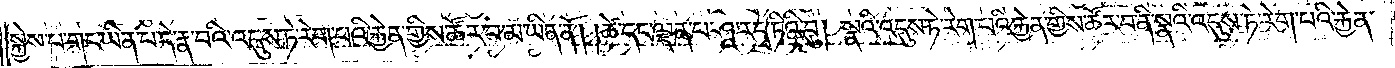སྐྱེས་པ་གང་ཡིན་པ་དེ་རྣ་བའི་འདུས་ཏེ་རེག་པའི་རྐྱེན་གྱིས་ཚོར་བ་མ་ཡིན་ནོ། །ཚེ་དང་ལྡན་པ་ཤཱ་ར་དྭ་ཏིའི་བུ། སྣའི་འདུས་ཏེ་རེག་པའི་རྐྱེན་གྱིས་ཚོར་བ་ནི་སྣའི་འདུས་ཏེ་རེག་པའི་རྐྱེན་
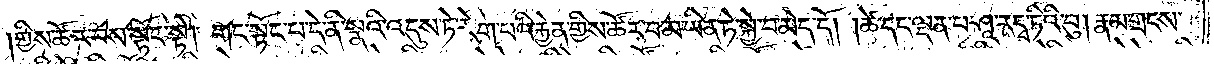གྱིས་ཚོར་བས་སྟོང་སྟེ། གང་སྟོང་པ་དེ་ནི་སྣའི་འདུས་ཏེ་རེག་པའི་རྐྱེན་གྱིས་ཚོར་བ་མ་ཡིན་ཏེ་སྐྱེ་བ་མེད་དོ། །ཚེ་དང་ལྡན་པ་ཤཱ་ར་དྭ་ཏིའི་བུ། རྣམ་གྲངས་
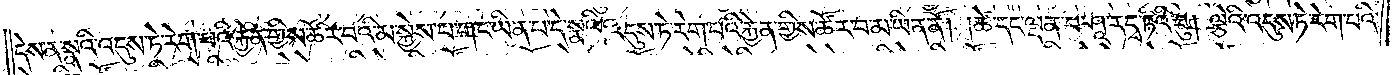དེས་ན་སྣའི་འདུས་ཏེ་རེག་པའི་རྐྱེན་གྱིས་ཚོར་བའི་མ་སྐྱེས་པ་གང་ཡིན་པ་དེ་སྣའི་འདུས་ཏེ་རེག་པའི་རྐྱེན་གྱིས་ཚོར་བ་མ་ཡིན་ནོ། །ཚེ་དང་ལྡན་པ་ཤཱ་ར་དྭ་ཏིའི་བུ། ལྕེའི་འདུས་ཏེ་རེག་པའི་
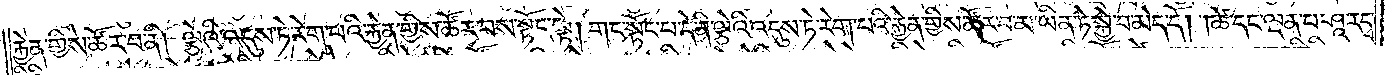རྐྱེན་གྱིས་ཚོར་བ་ནི། ལྕེའི་འདུས་ཏེ་རེག་པའི་རྐྱེན་གྱིས་ཚོར་བས་སྟོང་སྟེ། གང་སྟོང་པ་དེ་ནི་ལྕེའི་འདུས་ཏེ་རེག་པའི་རྐྱེན་གྱིས་ཚོར་བ་མ་ཡིན་ཏེ་སྐྱེ་བ་མེད་དོ། །ཚེ་དང་ལྡན་པ་ཤཱ་ར་དྭ་
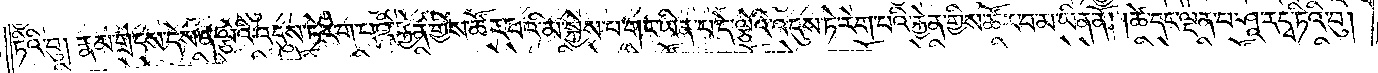ཏིའི་བུ། རྣམ་གྲངས་དེས་ན་ལྕེའི་འདུས་ཏེ་རེག་པའི་རྐྱེན་གྱིས་ཚོར་བའི་མ་སྐྱེས་པ་གང་ཡིན་པ་དེ་ལྕེའི་འདུས་ཏེ་རེག་པའི་རྐྱེན་གྱིས་ཚོར་བ་མ་ཡིན་ནོ། །ཚེ་དང་ལྡན་པ་ཤཱ་ར་དྭ་ཏིའི་བུ།
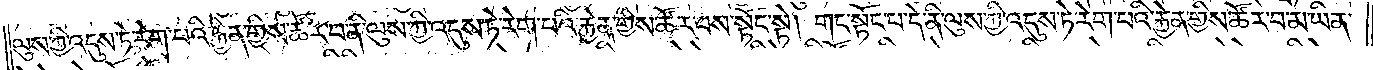ལུས་ཀྱི་འདུས་ཏེ་རེག་པའི་རྐྱེན་གྱིས་ཚོར་བ་ནི་ལུས་ཀྱི་འདུས་ཏེ་རེག་པའི་རྐྱེན་གྱིས་ཚོར་བས་སྟོང་སྟེ། གང་སྟོང་པ་དེ་ནི་ལུས་ཀྱི་འདུས་ཏེ་རེག་པའི་རྐྱེན་གྱིས་ཚོར་བ་མ་ཡིན་
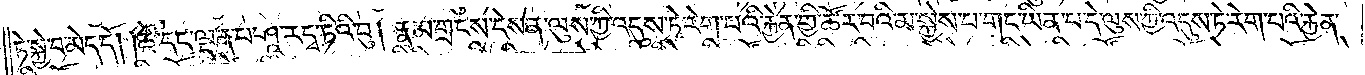ཏེ་སྐྱེ་བ་མེད་དོ། ཚེ་དང་ལྡན་པ་ཤཱ་ར་དྭ་ཏིའི་བུ། རྣམ་གྲངས་དེས་ན་ལུས་ཀྱི་འདུས་ཏེ་རེག་པའི་རྐྱེན་གྱིས་ཚོར་བའི་མ་སྐྱེས་པ་གང་ཡིན་པ་དེ་ལུས་ཀྱི་འདུས་ཏེ་རེག་པའི་རྐྱེན་
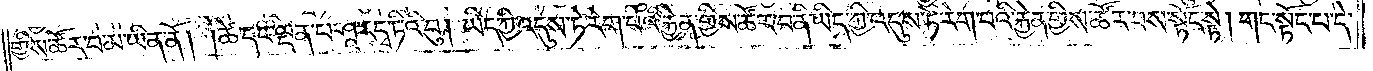གྱིས་ཚོར་བ་མ་ཡིན་ནོ། །ཚེ་དང་ལྡན་པ་ཤཱ་ར་དྭ་ཏིའི་བུ། ཡིད་ཀྱི་འདུས་ཏེ་རེག་པའི་རྐྱེན་གྱིས་ཚོར་བ་ནི་ཡིད་ཀྱི་འདུས་ཏེ་རེག་པའི་རྐྱེན་གྱིས་ཚོར་བས་སྟོང་སྟེ། གང་སྟོང་པ་དེ་
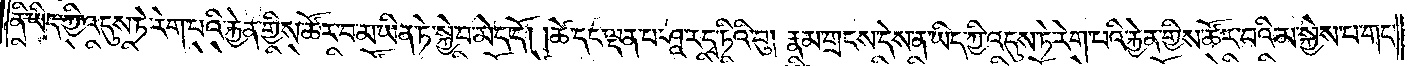ནི་ཡིད་ཀྱི་འདུས་ཏེ་རེག་པའི་རྐྱེན་གྱིས་ཚོར་བ་མ་ཡིན་ཏེ་སྐྱེ་བ་མེད་དོ། །ཚེ་དང་ལྡན་པ་ཤཱ་ར་དྭ་ཏིའི་བུ། རྣམ་གྲངས་དེས་ན་ཡིད་ཀྱི་འདུས་ཏེ་རེག་པའི་རྐྱེན་གྱིས་ཚོར་བའི་མ་སྐྱེས་པ་གང་
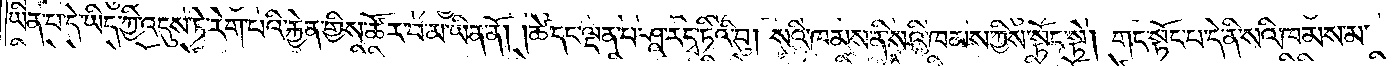ཡིན་པ་དེ་ཡིད་ཀྱི་འདུས་ཏེ་རེག་པའི་རྐྱེན་གྱིས་ཚོར་བ་མ་ཡིན་ནོ། །ཚེ་དང་ལྡན་པ་ཤཱ་ར་དྭ་ཏིའི་བུ། སའི་ཁམས་ནི་སའི་ཁམས་ཀྱིས་སྟོང་སྟེ། གང་སྟོང་པ་དེ་ནི་སའི་ཁམས་མ་
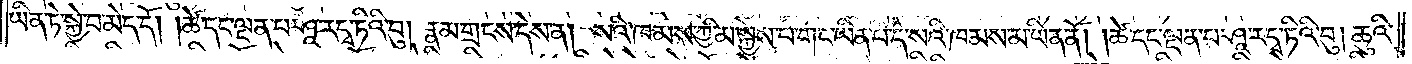ཡིན་ཏེ་སྐྱེ་བ་མེད་དོ། །ཚེ་དང་ལྡན་པ་ཤཱ་ར་དྭ་ཏིའི་བུ། རྣམ་གྲངས་དེས་ན། སའི་ཁམས་ཀྱི་མ་སྐྱེས་པ་གང་ཡིན་པ་དེ་སའི་ཁམས་མ་ཡིན་ནོ། །ཚེ་དང་ལྡན་པ་ཤཱ་ར་དྭ་ཏིའི་བུ། ཆུའི་
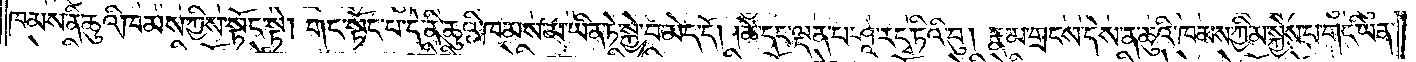ཁམས་ནི་ཆུའི་ཁམས་ཀྱིས་སྟོང་སྟེ། གང་སྟོང་པ་དེ་ནི་ཆུའི་ཁམས་མ་ཡིན་ཏེ་སྐྱེ་བ་མེད་དོ། །ཚེ་དང་ལྡན་པ་ཤཱ་ར་དྭ་ཏིའི་བུ། རྣམ་གྲངས་དེས་ན་ཆུའི་ཁམས་ཀྱི་མ་སྐྱེས་པ་གང་ཡིན་
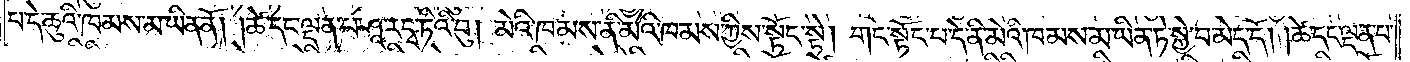པ་དེ་ཆུའི་ཁམས་མ་ཡིན་ནོ། །ཚེ་དང་ལྡན་པ་ཤཱ་ར་དྭ་ཏིའི་བུ། མེའི་ཁམས་ནི་མེའི་ཁམས་ཀྱིས་སྟོང་སྟེ། གང་སྟོང་པ་དེ་ནི་མེའི་ཁམས་མ་ཡིན་ཏེ་སྐྱེ་བ་མེད་དོ། །ཚེ་དང་ལྡན་པ་
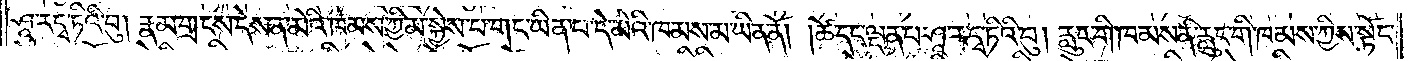ཤཱ་ར་དྭ་ཏིའི་བུ། རྣམ་གྲངས་དེས་ན་མེའི་ཁམས་ཀྱི་མ་སྐྱེས་པ་གང་ཡིན་པ་དེ་མེའི་ཁམས་མ་ཡིན་ནོ། །ཚེ་དང་ལྡན་པ་ཤཱ་ར་དྭ་ཏིའི་བུ། རླུང་གི་ཁམས་ནི་རླུང་གི་ཁམས་ཀྱིས་སྟོང་
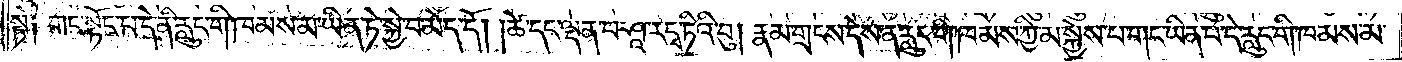སྟེ། གང་སྟོང་པ་དེ་ནི་རླུང་གི་ཁམས་མ་ཡིན་ཏེ་སྐྱེ་བ་མེད་དོ། །ཚེ་དང་ལྡན་པ་ཤཱ་ར་དྭ་ཏིའི་བུ། རྣམ་གྲངས་དེས་ན་རླུང་གི་ཁམས་ཀྱི་མ་སྐྱེས་པ་གང་ཡིན་པ་དེ་རླུང་གི་ཁམས་མ་
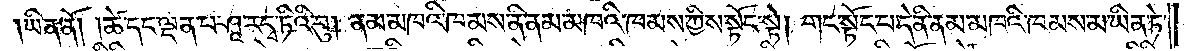ཡིན་ནོ། །ཚེ་དང་ལྡན་པ་ཤཱ་ར་དྭ་ཏིའི་བུ། ནམ་མཁའི་ཁམས་ནི་ནམ་མཁའི་ཁམས་ཀྱིས་སྟོང་སྟེ། གང་སྟོང་པ་དེ་ནི་ནམ་མཁའི་ཁམས་མ་ཡིན་ཏེ་
